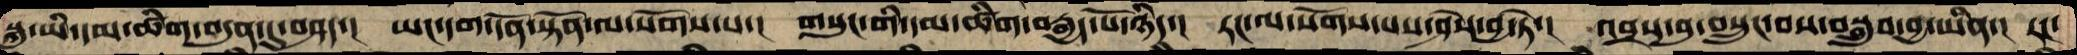སྐུ་ཡི་དམ་ཚིག་བདུན་དུ་བཤད་།   ཡང་དག་དོན་སྟོན་ལ་སོགས་པ་།  གསུང་གི་དམ་ཚིག་བརྒྱད་པོ་ཉིད་།  རང་ལ་སོགས་པས་ཤེས་བྱ་ཏེ་།  འབྲས་བུ་བསྲུང་བས་བསྒྲུབ་བྱ་ཡིན་།  རང་
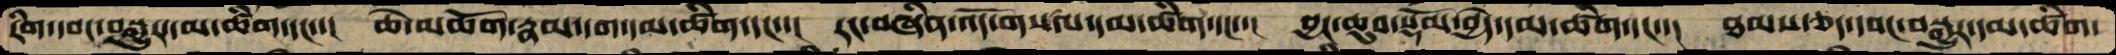རིག་དབང་བསྒྱུར་དམ་ཚིག་དང་་།  ཆེ་མཆོག་རྣམ་དག་དམ་ཚིག་དང་་།  རང་བཞིན་འདོ་གསལ་དམ་ཚིག་དང་་།  བྱང་ཆུབ་སྡོམ་བྱེད་དམ་ཚིག་དང་་།  ཐམས་ཅད་དབང་བསྒྱུར་དམ་ཚིག་
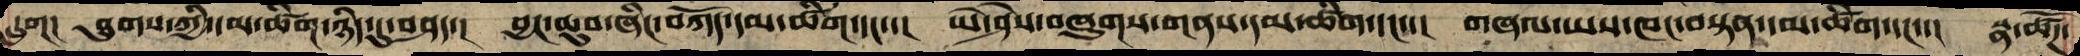དྲུག།  ཐུགས་ཀྱི་དམ་ཚིག་ཉིད་དུ་བཤད་།  བྱང་ཆུབ་ཞིང་བཀོད་དམ་ཚིག་དང་་།  ཡེ་ཤེས་བཞུགས་གནས་དམ་ཚིག་དང་་།   གཞལ་ཡས་ཁང་བསྟན་དམ་ཚིག་དང་་།  སྣ་ཚོཌ་
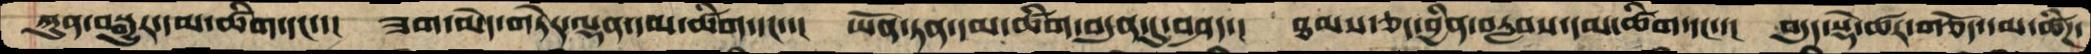ཀུན་བསྒྱུར་དམ་ཚིག་དང་་།  ཟག་མེད་གཏེར་ལྡན་དམ་ཚིག་དང་་།  ཡོན་ཏན་དམ་ཚིག་བདུན་དུ་བཤད་།  ཐམས་ཅད་བྱིན་བརླབས་དམ་ཚིག་དང་་།  བདུད་སྡེ་ཚར་གཅོད་དམ་ཚིཌ་
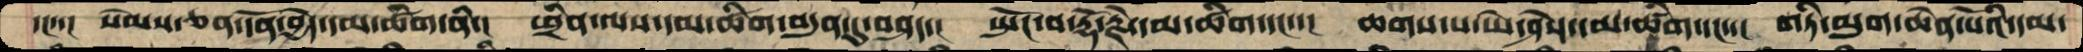དང་་།  སེམས་ཅན་དོན་བྱེད་དམ་ཚིག་ནི་།  ཕྲིན་ལས་དམ་ཚིག་བདུན་དུ་བཤད་།  སྤོང་བ་རྡོ་རྗེ་དམ་ཚིག་དང་་།  ཆགས་པ་ཡེ་ཤེས་དམ་ཚིག་དང་་།  གཏི་མུག་ཆེན་པོའི་དམ་
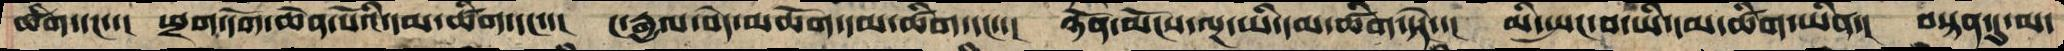ཚིག་དང་་།  ཕྲག་དོག་ཆེན་པོའི་དམ་ཚིག་དང་་།  ང་རྒྱལ་བདེ་མཆོག་དམ་ཚིག་དང་་།  ཉོན་མོངས་ལྔ་ཡི་དམ་ཚིག་སྟེ་་།  མི་སྤང་བ་ཡི་དམ་ཚིག་ཡིན་།  བསྟན་དུ་མ་
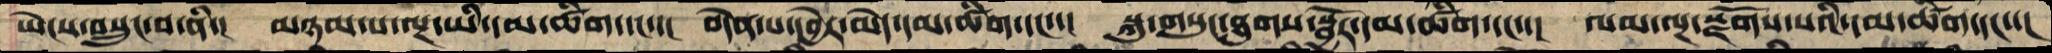ཡེངས་བསྲུང་བ་ནི་།  མཉམ་པ་ལྔ་ཡི་དམ་ཚིག་དང་་།  བདེན་པ་དབྱེར་མེད་དམ་ཚིག་དང་་།  སྐུ་གསུང་ཐུགས་སྦྱོར་དམ་ཚིག་དང་་།  ལམ་ལྔ་སྫོགས་པའི་དམ་ཚིག་དང་་།
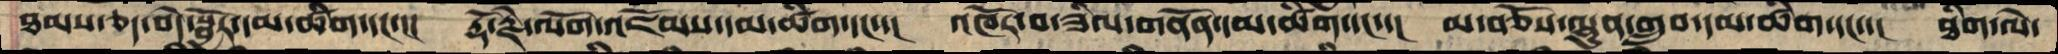ཐམས་ཅད་བདེ་སྦྱོར་དམ་ཚིག་དང་་།  རྡོ་རྗེ་ལོག་འཇོམས་དམ་ཚིག་དང་་།  འཁོར་བ་ཟིལ་གནོན་དམ་ཚིག་དང་་།  མ་བཅོས་ལྷུན་གྲུབ་དམ་ཚིག་དང་་།  ཐིག་ལེ་
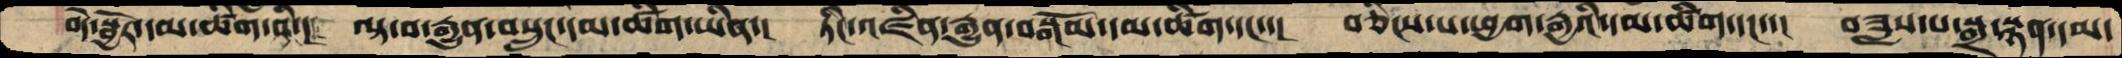བདེ་སྦྱོར་དམ་ཚིག་ནི་།  ལྟ་བ་རྒྱུན་བསྲུང་དམ་ཚིག་ཡིན་།  ཏིང་འཛིན་རྒྱུན་བསྒོམ་དམ་ཚིག་དང་་།  བཅིངས་པ་ཕྱག་རྒྱའི་དམ་ཚིག་དང་་།  བཟླས་པ་སྒྲ་སྙན་དམ་
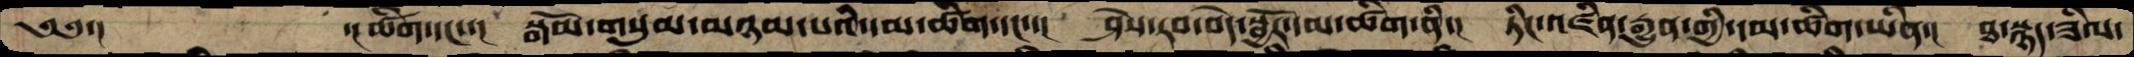༄༅་།       ་།ཚིག་དང་་།  སྒོམ་གསུམ་མཉམ་པའི་དམ་ཚིག་དང་་།  ཤེས་རབ་བདེ་སྦྱོར་དམ་ཚིག་ནི་།  ཏིང་འཛིན་རྒྱུན་གྱི་དམ་ཚིག་ཡིན་།  ཐ་སྙད་ཟིལ་
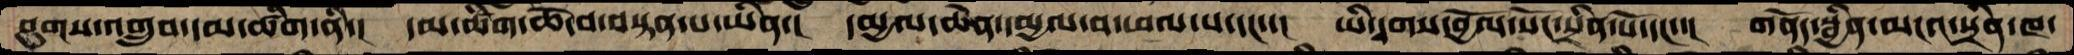ཤུགས་འགྲུབ་དམ་ཚིག་ནི་།  དམ་ཚིག་ཆེ་བ་བསྟན་པ་ཡིན་།  དམྱལ་ཆེན་དམྱལ་བ་ཕལ་པ་དང་་།  ཡི་དྭགས་བྱོོལ་སོང་སྲིན་པོ་དང་་།  གནོད་སྦྱིན་མངའ་སྲིན་ཁ་
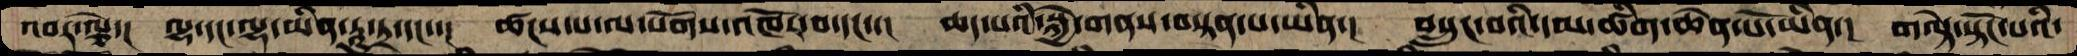འབར་ལྕེ་།  ལྷ་དང་ལྷ་མིན་རཱུ་ཏྲ་དང་་།  ཚངས་པ་ལ་སོགས་འཁོར་བ་དང་་།   ཆད་པའི་སྐྱེ་གནས་བསྟན་པ་ཡིན་།   བསྲུང་བའི་དམ་ཚིག་ཆེན་པོ་ཡིན་།  གལྟེ་སྟོང་པའི་
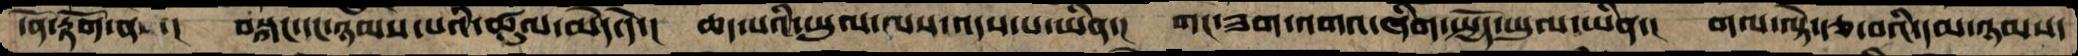དོན་རྟོག་ན་།   བསྐང་དང་ཉམས་པའི་ཚུལ་མེད་དེ་།  ཆད་པའི་ཡུལ་ལས་འདས་པ་ཡིན་།  གང་ཟག་འགའ་ཞིག་སྤྱོད་ཡུལ་ཡིན་།  གལ་ལྟེ་རྩ་བའི་དམ་ཉམས་
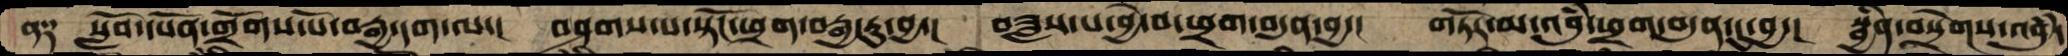ན༑  སློབ་དཔོན་གྲོགས་པོ་བརྒྱ་དག་ལ་།  བཤགས་པ་སྟོང་ཕྲག་བརྒྱ་རུ་བྱ་།  བཟླས་པ་བྱེ་བ་ཕྲག་བདུན་བྱ་།  གཏོར་མ་འབུཾ་ཕྲག་བདུན་དུ་བྱ་།  སྦྱིན་བསྲེགས་འབུཾ་
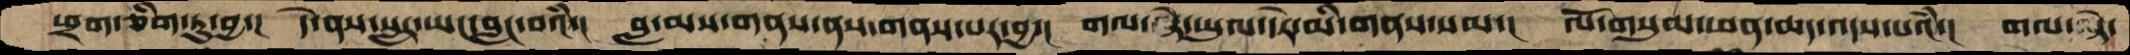ཕྲག་ཅིག་ཏུ་བྱ་།  དེ་ནས་སླར་ཡང་བླང་བའཾ་།  བླ་མས་གནས་ནས་གནས་པར་བྱ་།  གལ་ཏེ་ཡུལ་དེར་མི་གནས་སམ་།  ལོ་གསུམ་ཕན་ཆད་འདས་པའཾ་།  གལ་ཏེ་
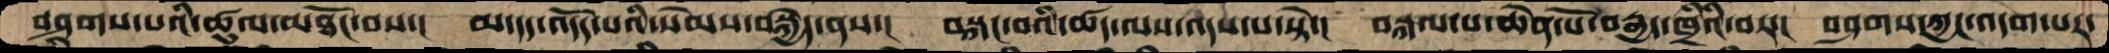བཤགས་པའི་ཚུལ་མཐོང་བས་།  མ་དད་འདོད་པའི་སེམས་བསྐྱེད་ནས་།  བསྐང་བའི་ཚད་ལས་འདས་པ་སྟེ་།  བསྐལ་པ་ཆེན་པོ་བརྒྱད་ཁྲིའི་བར་།  བཤགས་ཀྱང་འདག་པར་
